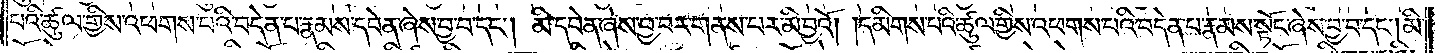པའི་ཚུལ་གྱིས་འཕགས་པའི་བདེན་པ་རྣམས་དབེན་ཞེས་བྱ་བ་དང༌། མི་དབེན་ཞེས་བྱ་བར་གནས་པར་མི་བྱའོ། །དམིགས་པའི་ཚུལ་གྱིས། འཕགས་པའི་བདེན་པ་རྣམས་སྟོང་ཞེས་བྱ་བ་དང༌། མི་
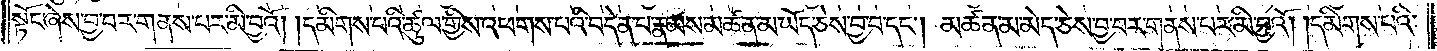སྟོང་ཞེས་བྱ་བར་གནས་པར་མི་བྱའོ། །དམིགས་པའི་ཚུལ་གྱིས་འཕགས་པའི་བདེན་པ་རྣམས་མཚན་མ་ཡོད་ཅེས་བྱ་བ་དང༌། མཚན་མ་མེད་ཅེས་བྱ་བར་གནས་པར་མི་བྱའོ། །དམིགས་པའི་
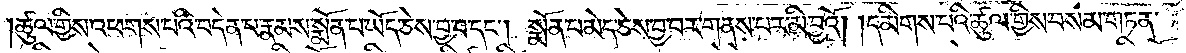ཚུལ་གྱིས་འཕགས་པའི་བདེན་པ་རྣམས་སྨོན་པ་ཡོད་ཅེས་བྱ་བ་དང༌། སྨོན་པ་མེད་ཅེས་བྱ་བར་གནས་པར་མི་བྱའོ། །དམིགས་པའི་ཚུལ་གྱིས་བསམ་གཏན་
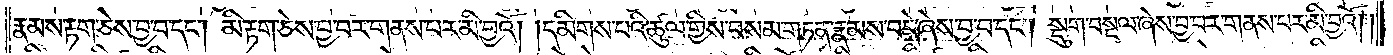རྣམས་རྟག་ཅེས་བྱ་བ་དང༌། མི་རྟག་ཅེས་བྱ་བར་གནས་པར་མི་བྱའོ། །དམིགས་པའི་ཚུལ་གྱིས་བསམ་གཏན་རྣམས་བདེ་ཞེས་བྱ་བ་དང༌། སྡུག་བསྔལ་ཞེས་བྱ་བར་གནས་པར་མི་བྱའོ། །
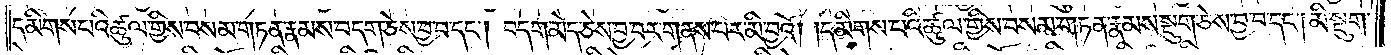དམིགས་པའི་ཚུལ་གྱིས་བསམ་གཏན་རྣམས་བདག་ཅེས་བྱ་བ་དང༌། བདག་མེད་ཅེས་བྱ་བར་གནས་པར་མི་བྱའོ། །དམིགས་པའི་ཚུལ་གྱིས་བསམ་གཏན་རྣམས་སྡུག་ཅེས་བྱ་བ་དང༌། མི་སྡུག་
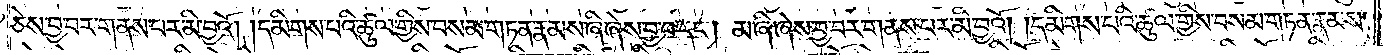ཅེས་བྱ་བར་གནས་པར་མི་བྱའོ། །དམིགས་པའི་ཚུལ་གྱིས་བསམ་གཏན་རྣམས་ཞི་ཞེས་བྱ་བ་དང༌། མ་ཞི་ཞེས་བྱ་བར་གནས་པར་མི་བྱའོ། །དམིགས་པའི་ཚུལ་གྱིས་བསམ་གཏན་རྣམས་
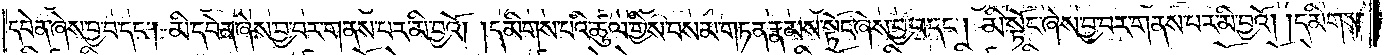དབེན་ཞེས་བྱ་བ་དང༌། མི་དབེན་ཞེས་བྱ་བར་གནས་པར་མི་བྱའོ། །དམིགས་པའི་ཚུལ་གྱིས་བསམ་གཏན་རྣམས་སྟོང་ཞེས་བྱ་བ་དང༌། མི་སྟོང་ཞེས་བྱ་བར་གནས་པར་མི་བྱའོ། །དམིགས་
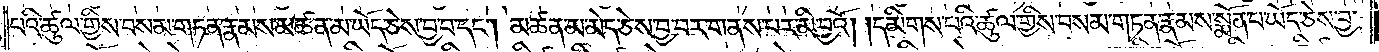པའི་ཚུལ་གྱིས་བསམ་གཏན་རྣམས་མཚན་མ་ཡོད་ཅེས་བྱ་བ་དང༌། མཚན་མ་མེད་ཅེས་བྱ་བར་གནས་པར་མི་བྱའོ། །དམིགས་པའི་ཚུལ་གྱིས་བསམ་གཏན་རྣམས་སྨོན་པ་ཡོད་ཅེས་བྱ་
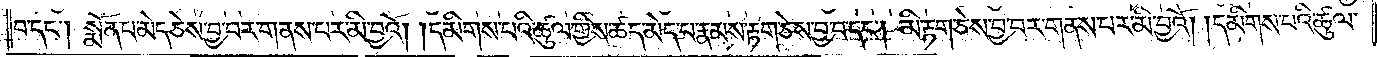བ་དང༌། སྨོན་པ་མེད་ཅེས་བྱ་བར་གནས་པར་མི་བྱའོ། །དམིགས་པའི་ཚུལ་གྱིས་ཚད་མེད་པ་རྣམས་རྟག་ཅེས་བྱ་བ་དང༌། མི་རྟག་ཅེས་བྱ་བར་གནས་པར་མི་བྱའོ། །དམིགས་པའི་ཚུལ་
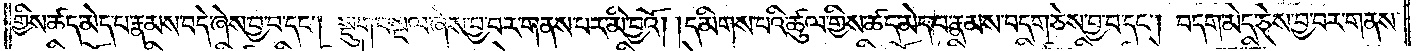གྱིས་ཚད་མེད་པ་རྣམས་བདེ་ཞེས་བྱ་བ་དང༌། སྡུག་བསྔལ་ཞེས་བྱ་བར་གནས་པར་མི་བྱའོ། །དམིགས་པའི་ཚུལ་གྱིས་ཚད་མེད་པ་རྣམས་བདག་ཅེས་བྱ་བ་དང༌། བདག་མེད་ཅེས་བྱ་བར་གནས་
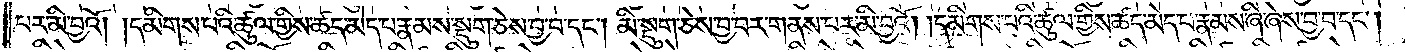པར་མི་བྱའོ། །དམིགས་པའི་ཚུལ་གྱིས་ཚད་མེད་པ་རྣམས་སྡུག་ཅེས་བྱ་བ་དང༌། མི་སྡུག་ཅེས་བྱ་བར་གནས་པར་མི་བྱའོ། །དམིགས་པའི་ཚུལ་གྱིས་ཚད་མེད་པ་རྣམས་ཞི་ཞེས་བྱ་བ་དང༌།
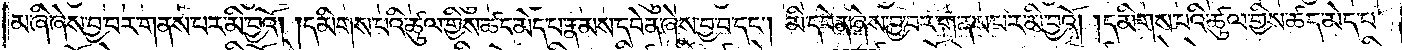མ་ཞི་ཞེས་བྱ་བར་གནས་པར་མི་བྱའོ། །དམིགས་པའི་ཚུལ་གྱིས་ཚད་མེད་པ་རྣམས་དབེན་ཞེས་བྱ་བ་དང༌། མི་དབེན་ཞེས་བྱ་བར་གནས་པར་མི་བྱའོ། །དམིགས་པའི་ཚུལ་གྱིས་ཚད་མེད་པ་
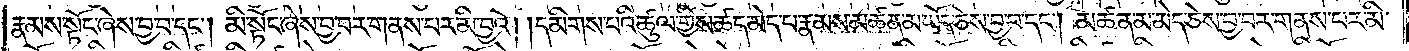རྣམས་སྟོང་ཞེས་བྱ་བ་དང༌། མི་སྟོང་ཞེས་བྱ་བར་གནས་པར་མི་བྱའོ། །དམིགས་པའི་ཚུལ་གྱིས་ཚད་མེད་པ་རྣམས་མཚན་མ་ཡོད་ཅེས་བྱ་བ་དང༌། མཚན་མ་མེད་ཅེས་བྱ་བར་གནས་པར་མི་
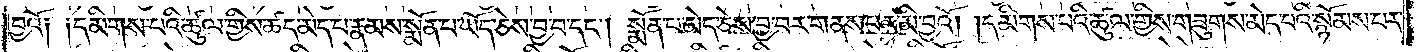བྱའོ༏ ༏དམིགས་པའི་ཚུལ་གྱིས་ཚད་མེད་པ་རྣམས་སྨོན་པ་ཡོད་ཅེས་བྱ་བ་དང༌། སྨོན་པ་མེད་ཅེས་བྱ་བར་གནས་པར་མི་བྱའོ། །དམིགས་པའི་ཚུལ་གྱིས་གཟུགས་མེད་པའི་སྙོམས་པར་
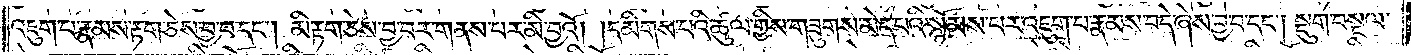འཇུག་པ་རྣམས་རྟག་ཅེས་བྱ་བ་དང༌། མི་རྟག་ཅེས་བྱ་བར་གནས་པར་མི་བྱའོ། །དམིགས་པའི་ཚུལ་གྱིས་གཟུགས་མེད་པའི་སྙོམས་པར་འཇུག་པ་རྣམས་བདེ་ཞེས་བྱ་བ་དང༌། སྡུག་བསྔལ་
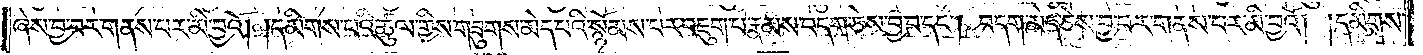ཞེས་བྱ་བར་གནས་པར་མི་བྱའོ། །དམིགས་པའི་ཚུལ་གྱིས་གཟུགས་མེད་པའི་སྙོམས་པར་འཇུག་པ་རྣམས་བདག་ཅེས་བྱ་བ་དང༌། བདག་མེད་ཅེས་བྱ་བར་གནས་པར་མི་བྱའོ། །དམིགས་
